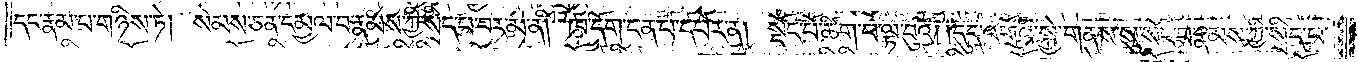དང་རྣམ་པ་གཉིས་ཏེ། སེམས་ཅན་དམྱལ་བ་རྣམས་ཀྱི་སྲིད་པ་བར་མ་ནི། ཁ་དོག་ངན་པ་དཔེར་ན། སྡོང་པོ་ཚིག་པ་ལྟ་བུའོ། །དུད་འགྲོའི་སྐྱེ་གནས་སུ་སོང་བ་རྣམས་ཀྱི་སྲིད་པ་
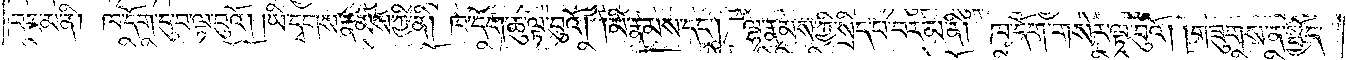བར་མ་ནི། ཁ་དོག་དུ་བ་ལྟ་བུའོ། །ཡི་དྭགས་རྣམས་ཀྱི་ནི། ཁ་དོག་ཆུ་ལྟ་བུའོ། །མི་རྣམས་དང༌། ལྷ་རྣམས་ཀྱི་སྲིད་པ་བར་མ་ནི། ཁ་དོག་གསེར་ལྟ་བུའོ། །གཟུགས་ན་སྤྱོད་
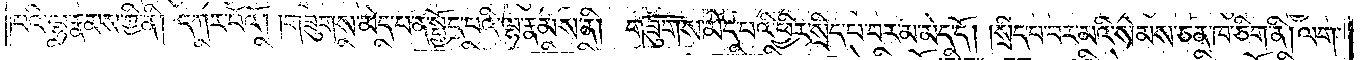པའི་ལྷ་རྣམས་ཀྱི་ནི། དཀར་པོའོ། །གཟུགས་མེད་པ་ན་སྤྱོད་པའི་ལྷ་རྣམས་ནི། གཟུགས་མེད་པའི་ཕྱིར་སྲིད་པ་བར་མ་མེད་དོ། །སྲིད་པ་བར་མའི་སེམས་ཅན་ཁ་ཅིག་ནི། ལག་
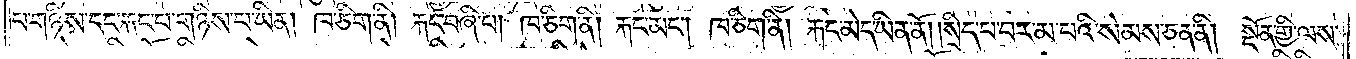པ་གཉིས་དང་རྐང་པ་གཉིས་པ་ཡིན། ཁ་ཅིག་ནི། རྐང་བཞི་པ། ཁ་ཅིག་ནི། རྐང་མང༌། ཁ་ཅིག་ནི། རྐང་མེད་ཡིན་ནོ། །སྲིད་པ་བར་མ་པའི་སེམས་ཅན་ནི། སྔོན་གྱི་ལས་
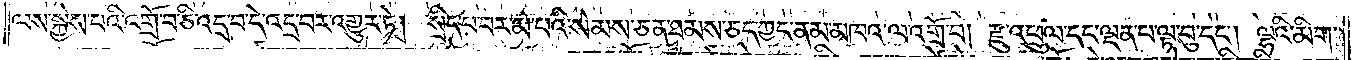ལས་སྐྱེས་པའི་འགྲོ་བ་ཅི་འདྲ་བ་དེ་འདྲ་བར་འགྱུར་ཏེ། སྲིད་པ་བར་མ་པའི་སེམས་ཅན་ཐམས་ཅད་ཀྱང་ནམ་མཁའ་ལ་འགྲོ་བ། རྫུ་འཕྲུལ་དང་ལྡན་པ་ལྟ་བུ་དང༌། ལྷའི་མིག་
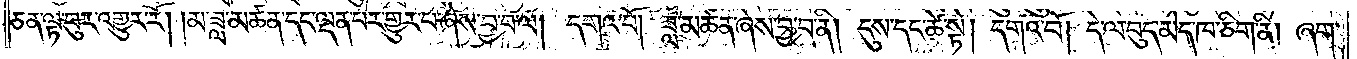ཅན་ལྟ་བུར་འགྱུར་རོ། །མ་ཟླ་མཚན་དང་ལྡན་པར་གྱུར་པ་ཞེས་བྱ་བ་ལ། དགའ་བོ། ཟླ་མཚན་ཞེས་བྱ་བ་ནི། དུས་དང་ཚེ་སྟེ། དགའ་བོ། དེ་ལ་བུད་མེད་ཁ་ཅིག་ནི། ཞག་
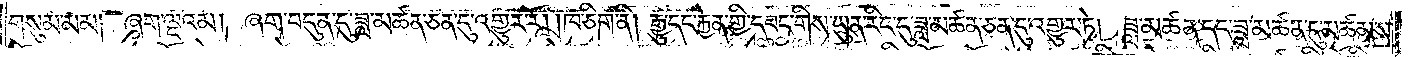གསུམ་མམ། ཞག་ལྔའམ། ཞག་བདུན་དུ་ཟླ་མཚན་ཅན་དུ་འགྱུར་རོ། །ཁ་ཅིག་ནི། རྒྱུ་དང་རྐྱེན་གྱི་དབང་གིས་ཡུན་རིང་དུ་ཟླ་མཚན་ཅན་དུ་འགྱུར་ཏེ། ཟླ་མཚན་དང་ཟླ་མཚན་དུ་མཚམས་
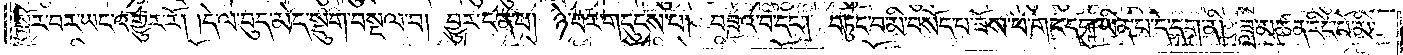སྦྱོར་བར་ཡང་འགྱུར་རོ། །དེ་ལ་བུད་མེད་སྡུག་བསྔལ་བ། བྱུར་ངན་པ། ཉེ་བར་གདུངས་པ། བཟའ་བ་དང༌། བཏུང་བ་མི་བསོད་པ་ཟོས་པ་གང་དག་ཡིན་པ་དེ་དག་ནི། ཟླ་མཚན་རིན་པོ་མི་
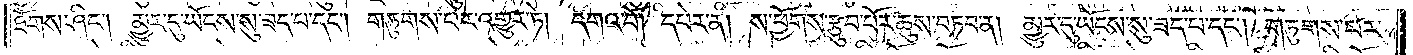ཐོགས་ཤིང༌། མྱུར་དུ་ཡོངས་སུ་ཟད་པ་དང༌། གཏུགས་པར་འགྱུར་ཏེ། དགའ་བོ། དཔེར་ན། ས་ཕྱོགས་རྩུབ་པོར་ཆུས་བཏབ་ན། མྱུར་དུ་ཡོངས་སུ་ཟད་པ་དང༌། གཏུགས་པར་
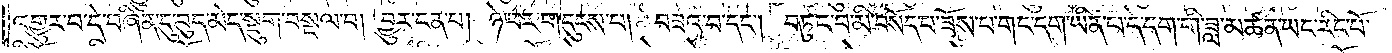འགྱུར་བ་དེ་བཞིན་དུ་ཆུད་མེད་སྡུག་བསྔལ་བ། བྱུར་ངན་པ། ཉེ་བར་གདུངས་པ། བཟའ་བ་དང༌། བཏུང་བ་མི་བསོད་པ་ཟོས་པ་གང་དག་ཡིན་པ་དེ་དག་གི་ཟླ་མཚན་ཡང་རིང་པོ་
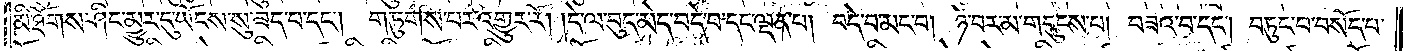མི་ཐོགས་ཤིང་མྱུར་དུ་ཡོངས་སུ་ཟད་པ་དང༌། གཏུགས་པར་འགྱུར་རོ། །དེ་ལ་བུད་མེད་བདེ་བ་དང་ལྡན་པ། བདེ་བ་མང་བ། ཉེ་བར་མ་གདུངས་པ། བཟའ་བ་དང༌། བཏུང་བ་བསོད་པ་
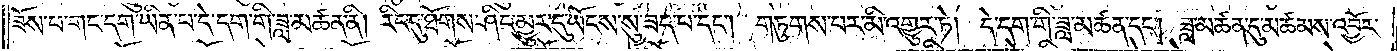ཟོས་པ་གང་དག་ཡིན་པ་དེ་དག་གི་ཟླ་མཚན་ནི། རིང་དུ་ཐོགས་ཤིང་མྱུར་དུ་ཡོངས་སུ་ཟད་པ་དང༌། གཏུགས་པར་མི་འགྱུར་ཏེ། དེ་དག་གི་ཟླ་མཚན་དང༌། ཟླ་མཚན་དུ་མཚམས་འབྱོར་
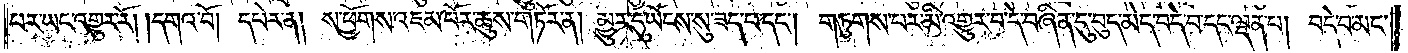པར་ཡང་འགྱུར་རོ། །དགའ་བོ། དཔེར་ན། ས་ཕྱོགས་འཇམ་པོར་ཆུས་གཏོར་ན། མྱུར་དུ་ཡོངས་སུ་ཟད་པ་དང༌། གཏུགས་པར་མི་འགྱུར་བ་དེ་བཞིན་དུ་བུད་མེད་བདེ་བ་དང་ལྡན་པ། བདེ་བ་མང་
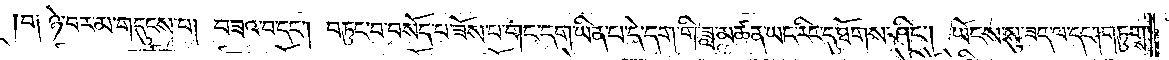བ༑ ཉེ་བར་མ་གདུངས་པ། བཟའ་བ་དང༌། བཏུང་བ་བསོད་པ་ཟོས་པ་གང་དག་ཡིན་པ་དེ་དག་གི་ཟླ་མཚན་ཡང་རིང་དུ་ཐོགས་ཤིང༌། ཡོངས་སུ་ཟད་པ་དང༌། གཏུགས་
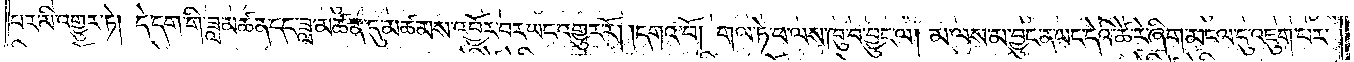པར་མི་འགྱུར་ཏེ། དེ་དག་གི་ཟླ་མཚན་དང་ཟླ་མཚན་དུ་མཚམས་འབྱོར་བར་ཡང་འགྱུར་རོ། །དགའ་བོ། གལ་ཏེ་ཕ་ལས་ཁུ་བ་བྱུང་ལ། མ་ལས་མ་བྱུང་ན་ཡང་དེའི་ཚེ་རེ་ཞིག་མངལ་དུ་འཇུག་པར་
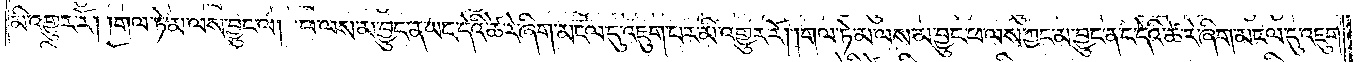མི་འགྱུར་རོ། །གལ་ཏེ་མ་ལས་བྱུང་ལ། ཕ་ལས་མ་བྱུང་ན་ཡང་དེའི་ཚེ་རེ་ཞིག་མངལ་དུ་འཇུག་པར་མི་འགྱུར་རོ། །གལ་ཏེ་མ་ལས་མ་བྱུང་ཕ་ལས་ཀྱང་མ་བྱུང་ནང་དེའི་ཚེ་རེ་ཞིག་མངལ་དུ་འཇུག་
